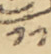༡༡
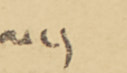ལ་།
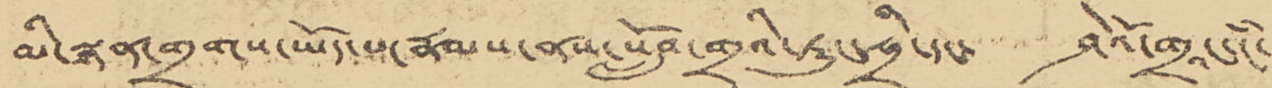མི་སྙན་གྲགས་ཡོད་པ་རྣམས་ནས་སློབ་གྲྭའི་ཏུ་ཧྲི་དང་ ཤེའོ་གྲའང་དཾ་
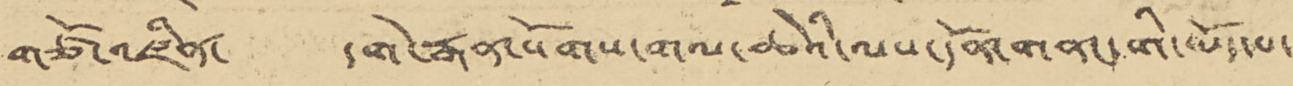གཙོ་འཛིན་ དགེ་རྒན་སོགས་གལ་ཆེའི་ལས་དོན་གནང་གི་ཡོད་པ་
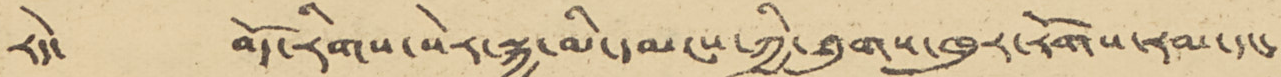རེད་ བོད་རིགས་སེར་སྐྱ་མི་དམངས་ཀྱི་ཐུགས་ཁུར་རོགས་རམ་དང་
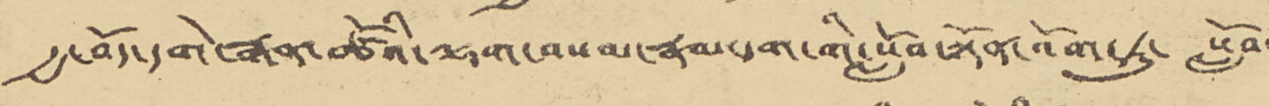རྒྱ་བོད་དགེ་རྒན་ཚོའི་ལྷག་བསམ་རྣམས་དག་གི་སློབ་སྟོན་འོག་ཏུ་ སློབ་
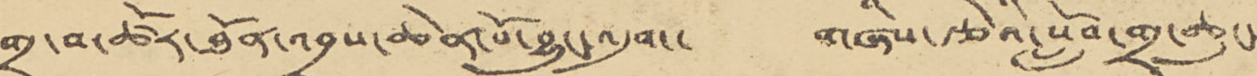གྲྭ་བ་ཚོར་ཐོན་འབྲས་ཆེན་པོ་བྱུང་འདུག་ གཞིས་རྩེའི་སློབ་གྲྭ་ཆུང་
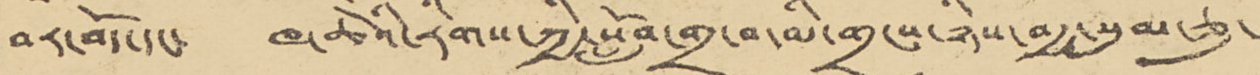བར་བོད་དང་ ཁ་ཆེའི་རིགས་ཀྱི་སློབ་གྲྭ་བ་མི་གྲངས་ཉིས་བརྒྱ་སུམ་ཅུ་
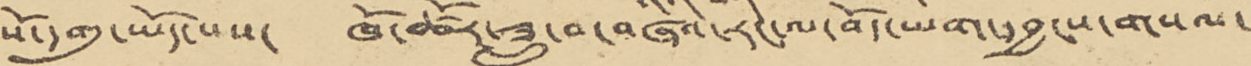སོ་དགུ་ཡོད་པས་ ཁོ་ཚོར་ཟླ་བ་བཞིའི་རིང་ལ་བོད་ཡིག་དབྱངས་གསལ་
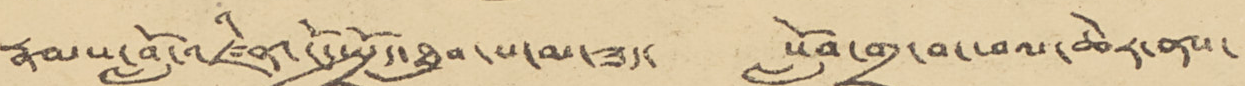རྣམས་བློ་འཛིན་ངོ་སྤྲོད་ཐུབ་པ་མ་ཟད་ སློབ་གྲྭ་བ་ཕལ་ཆེར་ནས་
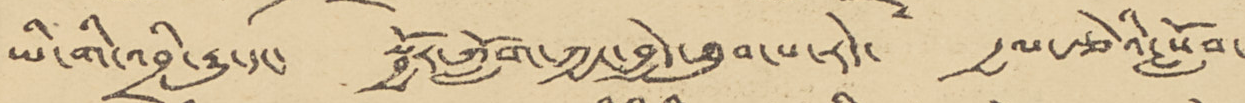ཡི་གི་འབྲི་རྒྱུ་དང་ སྦྱོར་ཀློག་ཀྱང་བྱེད་ཐུབ་པ་རེད་ རྒྱལ་རྩེའི་སློབ་
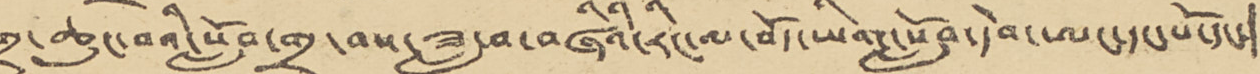གྲྭ་ཆུང་བའི་སློབ་གྲྭ་བས་ཟླ་བ་བཞིའི་རིང་ལ་བོད་ཡིག་སློབ་དེབ་ཨང་དང་པོ་དང་།
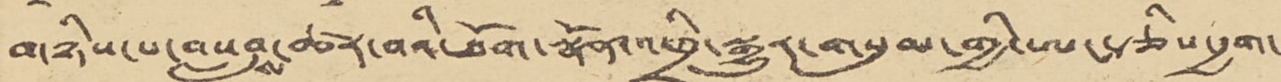གཉིས་པ་བསླབས་ཚར་བའི་ཐོག་སྣོན་འཕྲི་སྒྱུར་གསུམ་གྱི་ཨང་རྩིས་རྒྱག་
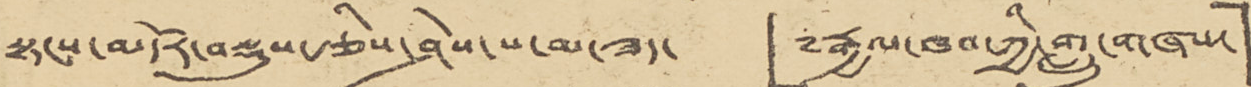སྟངས་མདོར་བསྡུས་རྩིས་ཤེས་པ་མ་ཟད་ 「༸རྒྱལ་ཁབ་ཀྱི་གླུ་གཞས་」
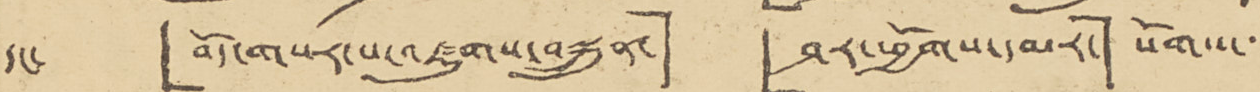དང་ 「བོད་གསར་པ་འཛུགས་བསྐྲུན་」 「ཤར་ཕྱོགས་དམར་」སོགས་་་
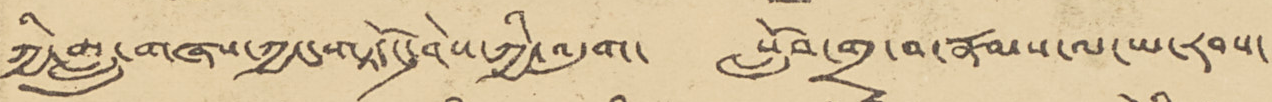ཀྱི་གླུ་གཞས་ཀྱང་གཏོང་ཤེས་ཀྱི་འདུག་ སློབ་གྲྭ་བ་རྣམས་ལ་ཡ་རབས་
